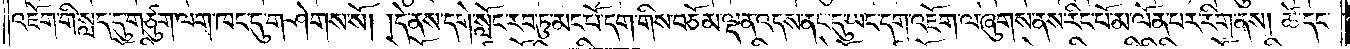འཇོག་གི་སླད་དུ་གཙུག་ལག་ཁང་དུ་གཤེགས་སོ། །དེ་ནས་དགེ་སློང་རབ་ཏུ་མང་པོ་དག་གིས་བཅོམ་ལྡན་འདས་ནང་དུ་ཡང་དག་འཇོག་ལ་ཞུགས་ནས་རིང་པོ་མ་ལོན་པར་རིག་ནས། ཚེ་དང་
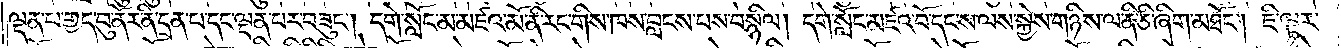ལྡན་པ་གྱད་བུ་ནོར་ནི་དྲན་པ་དང་ལྡན་པར་བཟུང༌། དགེ་སློང་མ་མཛའ་མོ་ནི་རང་གིས་ཁས་བླངས་པས་བསྙིལ། དགེ་སློང་མཛའ་བོ་དང་ས་ལས་སྐྱེས་གཉིས་ལ་ནི་ཅི་ཞིག་མཐོང༌། ཇི་ལྟར་
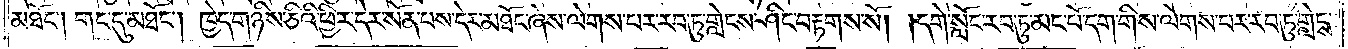མཐོང༌། གང་དུ་མཐོང༌། ཁྱེད་གཉིས་ཅིའི་ཕྱིར་དེར་སོན་པས་དེར་མཐོང་ཞེས་ལེགས་པར་རབ་ཏུ་གླེངས་ཤིང་བརྟགས་སོ། །དགེ་སློང་རབ་ཏུ་མང་པོ་དག་གིས་ལེགས་པར་རབ་ཏུ་གླེངས་
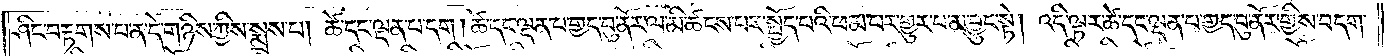ཤིང་བརྟགས་པ་ན་དེ་གཉིས་ཀྱིས་སྨྲས་པ། ཚེ་དང་ལྡན་པ་དག །ཚེ་དང་ལྡན་པ་གྱད་བུ་ནོར་ལ་མི་ཚངས་པར་སྤྱོད་པའི་ཕམ་པར་གྱུར་པ་མ་བྱུང་སྟེ། འདི་ལྟར་ཚེ་དང་ལྡན་པ་གྱད་བུ་ནོར་གྱིས་བདག་
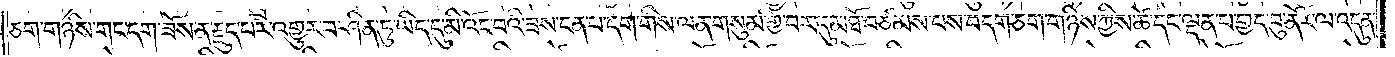ཅག་གཉིས་གང་དག་ཟོས་ན་རྗུད་པར་འགྱུར་བ་ཤིན་ཏུ་ཡིད་དུ་མི་འོང་བའི་ཟས་ངན་པ་དག་གིས་ལན་གསུམ་གྱི་བར་དུ་མཐོ་བཙམས་པས་བདག་ཅག་གཉིས་ཀྱིས་ཚེ་དང་ལྡན་པ་གྱད་བུ་ནོར་ལ་འདུན་
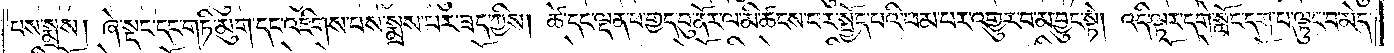པས་སྨྲས། ཞེ་སྡང་དང་གཏི་མུག་དང་འཇིགས་པས་སྨྲས་པར་ཟད་ཀྱིས། ཚེ་དང་ལྡན་པ་གྱད་བུ་ནོར་ལ་མི་ཚངས་པར་སྤྱོད་པའི་ཕམ་པར་འགྱུར་བ་མ་བྱུང་སྟེ། འདི་ལྟར་དགེ་སློང་དག་པ་ལྟུང་བ་མེད་
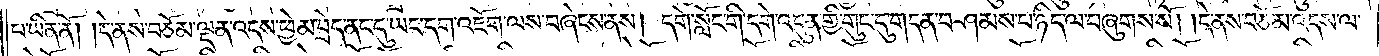པ་ཡིན་ནོ། །དེ་ནས་བཅོམ་ལྡན་འདས་ཕྱེ་མ་བྲེད་ནང་དུ་ཡང་དག་འཇོག་ལས་བཞེངས་ནས། དགེ་སློང་གི་དགེ་འདུན་གྱི་གུང་དུ་གདན་བཤམས་པ་ཉིད་ལ་བཞུགས་སོ། །དེ་ནས་བཅོམ་ལྡན་འདས་ལ་
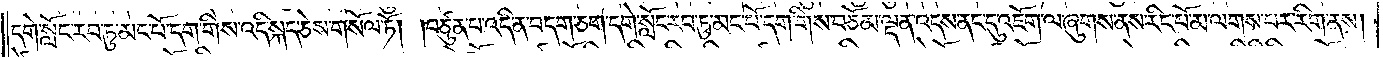དགེ་སློང་རབ་ཏུ་མང་པོ་དག་གིས་འདི་སྐད་ཅེས་གསོལ་ཏོ། །བཙུན་པ་འདི་ན་བདག་ཅག་དགེ་སློང་རབ་ཏུ་མང་པོ་དག་གིས་བཅོམ་ལྡན་འདས་ནང་དུ་འཇོག་ལ་ཞུགས་ནས་རིང་པོ་མ་ལགས་པར་རིག་ནས།
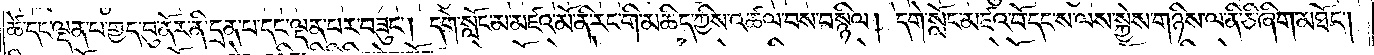ཚེ་དང་ལྡན་པ་གྱད་བུ་ནོར་ནི་དྲན་པ་དང་ལྡན་པར་བཟུང༌། དགེ་སློང་མ་མཛའ་མོ་ནི་རང་གི་མཆིད་ཀྱིས་འཚལ་བས་བསྙིལ། དགེ་སློང་མཛའ་བོ་དང་ས་ལས་སྐྱེས་གཉིས་ལ་ནི་ཅི་ཞིག་མཐོང༌།
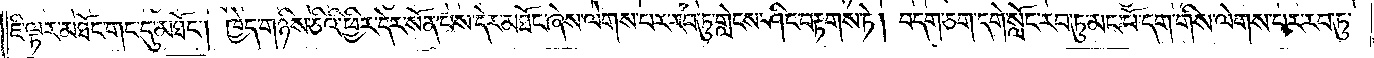ཇི་ལྟར་མཐོང་གང་དུ་མཐོང༌། ཁྱེད་གཉིས་ཅིའི་ཕྱིར་དེར་སོན་པས་དེར་མཐོང་ཞེས་ལེགས་པར་རབ་ཏུ་གླེངས་ཤིང་བརྟགས་ཏེ། བདག་ཅག་དགེ་སློང་རབ་ཏུ་མང་པོ་དག་གིས་ལེགས་པར་རབ་ཏུ་
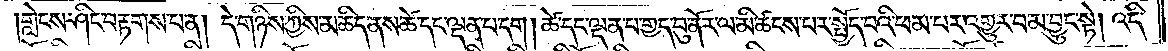།གླེངས་ཤིང་བརྟགས་པ་ན། དེ་གཉིས་ཀྱིས་མཆིད་ནས་ཚེ་དང་ལྡན་པ་དག །ཚེ་དང་ལྡན་པ་གྱད་བུ་ནོར་ལ་མི་ཆངས་པར་སྤྱོད་པའི་ཕམ་པར་འགྱུར་བ་མ་བྱུང་སྟེ། འདི་
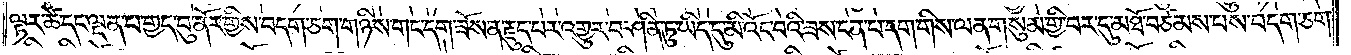ལྟར་ཚེ་དང་ལྡན་པ་གྱད་བུ་ནོར་གྱིས་བདག་ཅག་གཉིས་གང་དག་ཟོས་ན་རྗུད་པར་འགྱུར་བ་ཤིན་ཏུ་ཡིད་དུ་མི་འོང་བའི་ཟས་ངན་པ་དག་གིས་ལན་གསུམ་གྱི་བར་དུ་མཐོ་བཙམས་པས་བདག་ཅག་
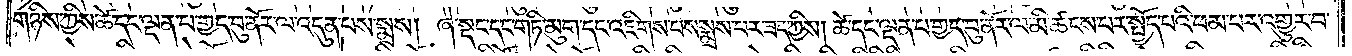གཉིས་ཀྱིས་ཚེ་དང་ལྡན་པ་གྱད་བུ་ནོར་ལ་འདུན་པས་སྨྲས། ཞེ་སྡང་དང་གཏི་མུག་དང་འཇིགས་པས་སྨྲས་པར་ཟད་ཀྱིས། ཚེ་དང་ལྡན་པ་གྱད་བུ་ནོར་ལ་མི་ཚངས་པར་སྤྱོད་པའི་ཕམ་པར་འགྱུར་བ་
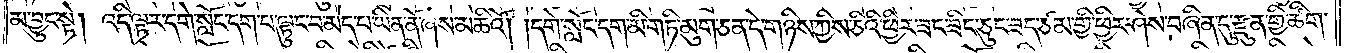མ་བྱུང་སྟེ། འདི་ལྟར་དགེ་སློང་དག་པ་ལྟུང་བ་མེད་པ་ཡིན་ནོ་ཞེས་མཆིའོ། །དགེ་སློང་དག་མི་གཏི་མུག་ཅན་དེ་གཉིས་ཀྱིས་ཅིའི་ཕྱིར་ཟང་ཟིང་ཅུང་ཟད་ཙམ་གྱི་ཕྱིར་ཤེས་བཞིན་དུ་རྫུན་གྱི་ཚིག་
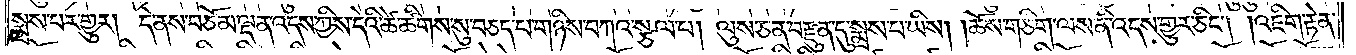སྨྲས་པར་གྱུར། དེ་ནས་བཅོམ་ལྡན་འདས་ཀྱིས་དེའི་ཚེ་ཚིགས་སུ་བཅད་པ་གཉིས་བཀའ་སྩལ་པ། ལུས་ཅན་བརྫུན་དུ་སྨྲས་པ་ཡིས། །ཆོས་གཅིག་ལས་ནི་འདས་གྱུར་ཅིང༌། །འཇིག་རྟེན་
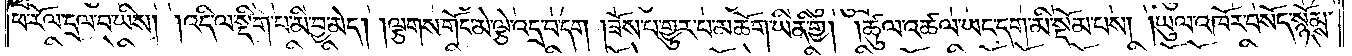ཕ་རོལ་དྲལ་བ་ཡིས། །འདི་ལ་སྡིག་པ་མི་བྱ་མེད། །ལྕགས་གོང་མེ་ལྕེ་འདྲ་བ་དག །ཟོས་པ་གྱུར་པ་མཆོག་ཡིན་གྱི། ཚུལ་འཚལ་ཡང་དག་མི་སྡོམ་པས། །ཡུལ་འཁོར་བསོད་སྙོམས་
